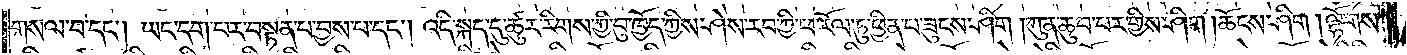གསལ་བ་དང༌། ཡང་དག་པར་བསྟན་པ་བྱས་པ་དང༌། འདི་སྐད་དུ་ཚུར་རིགས་ཀྱི་བུ་ཁྱོད་ཀྱིས་ཤེས་རབ་ཀྱི་ཕ་རོལ་ཏུ་ཕྱིན་པ་ཟུངས་ཤིག །ཀུན་ཆུབ་པར་གྱིས་ཤིག །ཆོངས་ཤིག །ལྷོགས་
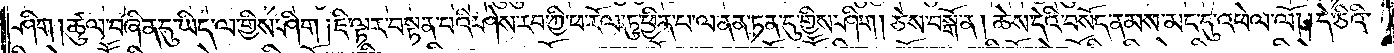ཤིག །ཚུལ་བཞིན་དུ་ཡིད་ལ་གྱིས་ཤིག །ཇི་ལྟར་བསྟན་པའི་ཤེས་རབ་ཀྱི་ཕ་རོལ་ཏུ་ཕྱིན་པ་ལ་ནན་ཏན་དུ་གྱིས་ཤིག། ཅེས་བསྒོ་ན། ཆེས་དེའི་བསོད་ནམས་མང་དུ་འཕེལ་ལོ། །དེ་ཅིའི་
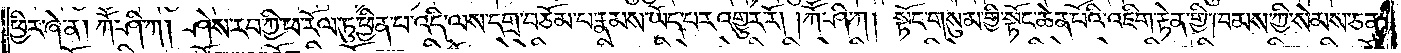ཕྱིར་ཞེ་ན། ཀཽ་ཤི་ཀ། ཤེས་རབ་ཀྱི་ཕ་རོལ་ཏུ་ཕྱིན་པ་འདི་ལས་དགྲ་བཅོམ་པ་རྣམས་ཡོད་པར་འགྱུར་རོ། །ཀཽ་ཤི་ཀ། སྟོང་གསུམ་གྱི་སྟོང་ཆེན་པོའི་འཇིག་རྟེན་གྱི་ཁམས་ཀྱི་སེམས་ཅན་
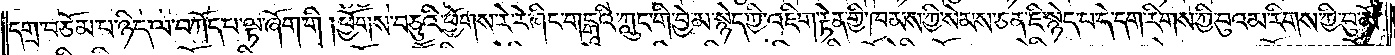དགྲ་བཅོམ་པ་ཉིད་ལ་བཀོད་པ་ལྟ་ཞོག་གི །ཕྱོགས་བཅུའི་ཕྱོགས་རེ་རེ་ཞིང་གངྒཱའི་ཀླུང་གི་བྱེ་མ་སྙེད་ཀྱི་འཇིག་རྟེན་གྱི་ཁམས་ཀྱི་སེམས་ཅན་ཇི་སྙེད་པ་དེ་དག་རིགས་ཀྱི་བུའམ་རིགས་ཀྱི་བུ་མོ་
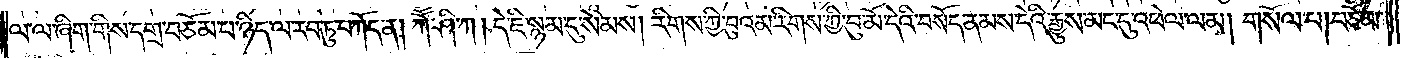ལ་ལ་ཞིག་གིས་དགྲ་བཅོམ་པ་ཉིད་ལ་རབ་ཏུ་བཀོད་ན། ཀཽ་ཤི་ཀ། དེ་ཇི་སྙམ་དུ་སེམས། རིགས་ཀྱི་བུའམ་རིགས་ཀྱི་བུ་མོ་དེའི་བསོད་ནམས་དེའི་རྒྱུས་མང་དུ་འཕེལ་ལམ། གསོལ་པ། བཅོམ་
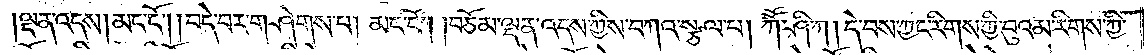ལྡན་འདས། མང་ངོ༌། །བདེ་བར་གཤེགས་པ། མང་ངོ༌། །བཅོམ་ལྡན་འདས་ཀྱིས་བཀའ་སྩལ་པ། ཀཽ་ཤི་ཀ། དེ་བས་ཀྱང་རིགས་ཀྱི་བུའམ་རིགས་ཀྱི་
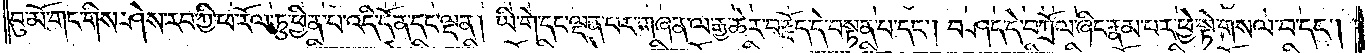བུ་མོ་གང་གིས་ཤེས་རབ་ཀྱི་ཕ་རོལ་ཏུ་ཕྱིན་པ་འདི་དོན་དང་ལྡན། ཡི་གེ་དང་ལྡན་པར་གཞན་ལ་རྒྱ་ཆེར་བརྗོད་དེ་བསྟན་པ་དང༌། བཤད་དེ་བཀྲོལ་ཞིང་རྣམ་པར་ཕྱེ་སྟེ་གསལ་བ་དང༌།
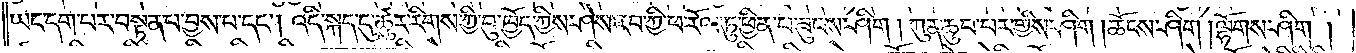ཡང་དག་པར་བསྟན་པ་བྱས་པ་དང༌། འདི་སྐད་དུ་ཚུར་རིགས་ཀྱི་བུ་ཁྱོད་ཀྱིས་ཤེས་རབ་ཀྱི་ཕ་རོལ་ཏུ་ཕྱིན་པ་ཟུངས་ཤིག །ཀུན་ཆུབ་པར་གྱིས་ཤིག །ཆོངས་ཤིག། ལྷོགས་ཤིག །
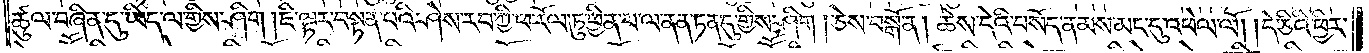ཚུལ་བཞིན་དུ་ཡིད་ལ་གྱིས་ཤིག །ཇི་ལྟར་བསྟན་བའི་ཤེས་རབ་ཀྱི་ཕ་རོལ་ཏུ་ཕྱིན་པ་ལ་ནན་ཏན་དུ་གྱིས་ཤིག །ཅེས་བསྒོ་ན། ཆེས་དེའི་བསོད་ནམས་མང་དུ་འཕེལ་ལོ། །དེ་ཅིའི་ཕྱིར་
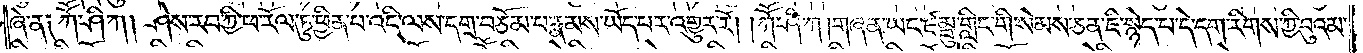ཞེ་ན༑ ཀཽ་ཤི་ཀ། ཤེས་རབ་ཀྱི་ཕ་རོལ་ཏུ་ཕྱིན་པ་འདི་ལས་དགྲ་བཅོམ་པ་རྣམས་ཡོད་པར་འགྱུར་རོ། །ཀཽ་ཤི་ཀ། གཞན་ཡང་ཛམྦུ་གླིང་གི་སེམས་ཅན་ཇི་སྙེད་པ་དེ་དག་རིགས་ཀྱི་བུའམ་
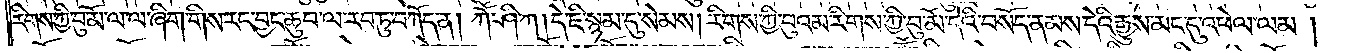རིགས་ཀྱི་བུ་མོ་ལ་ལ་ཞིག་གིས་རང་བྱང་ཆུབ་ལ་རབ་ཏུ་བཀོད་ན། ཀཽ་ཤི་ཀ། དེ་ཇི་སྙམ་དུ་སེམས། རིགས་ཀྱི་བུའམ་རིགས་ཀྱི་བུ་མོ་དེའི་བསོད་ནམས་དེའི་རྒྱུས་མང་དུ་འཕེལ་ལམ།
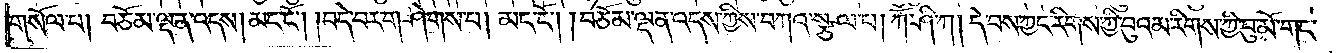གསོལ་པ། བཅོམ་ལྡན་འདས། མང་ངོ༌། །བདེ་བར་གཤེགས་པ། མང་ངོ༌། །བཅོམ་ལྡན་འདས་ཀྱིས་བཀའ་སྩལ་པ། ཀཽ་ཤི་ཀ། དེ་བས་ཀྱང་རིགས་ཀྱི་བུའམ་རིགས་ཀྱི་བུ་མོ་གང་
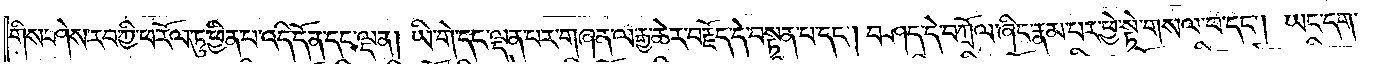གིས་ཤེས་རབ་ཀྱི་ཕ་རོལ་ཏུ་ཕྱིན་པ་འདི་དོན་དང་ལྡན། ཡི་གེ་དང་ལྡན་པར་གཞན་ལ་རྒྱ་ཆེར་བརྗོད་དེ་བསྟན་པ་དང༌། བཤད་དེ་བཀྲོལ་ཞིང་རྣམ་པར་ཕྱེ་སྟེ་གསལ་བ་དང༌། ཡང་དག་
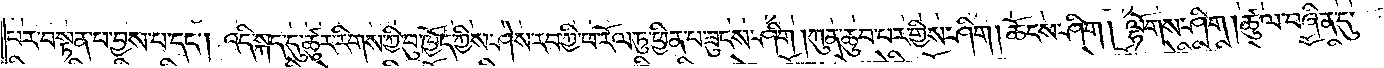པར་བསྟན་པ་བྱས་པ་དང༌། འདི་སྐད་དུ་ཚུར་རིགས་ཀྱི་བུ་ཁྱོད་ཀྱིས་ཤེས་རབ་ཀྱི་ཕ་རོལ་ཏུ་ཕྱིན་པ་ཟུངས་ཤིག །ཀུན་ཆུབ་པར་གྱིས་ཤིག །ཆོངས་ཤིག། ལྷོགས་ཤིག །ཚུལ་བཞིན་དུ་
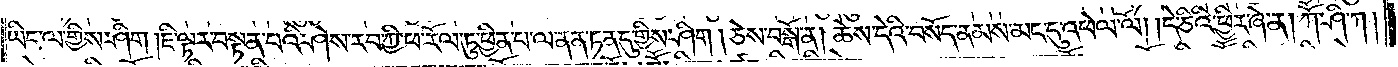ཡིད་ལ་གྱིས་ཤིག །ཇི་ལྟར་བསྟན་པའི་ཤེས་རབ་ཀྱི་ཕ་རོལ་ཏུ་ཕྱིན་པ་ལ་ནན་ཏན་དུ་གྱིས་ཤིག། ཅེས་བསྒོ་ན། ཆེས་དེའི་བསོད་ནམས་མང་དུ་འཕེལ་ལོ། །དེ་ཅིའི་ཕྱིར་ཞེ་ན། ཀཽ་ཤི་ཀ།
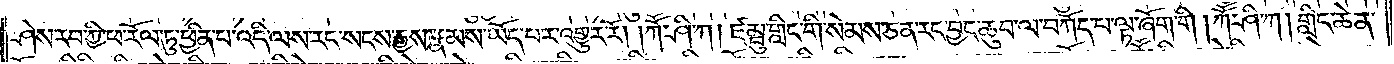ཤེས་རབ་ཀྱི་ཕ་རོལ་ཏུ་ཕྱིན་པ་འདི་ལས་རང་སངས་རྒྱས་རྣམས་ཡོད་པར་འགྱུར་རོ། །ཀཽ་ཤི་ཀ། ཛམྦུ་གླིང་གི་སེམས་ཅན་རང་བྱང་ཆུབ་ལ་བཀོད་པ་ལྟ་ཞོག་གི །ཀཽ་ཤི་ཀ། གླིང་ཆེན་
